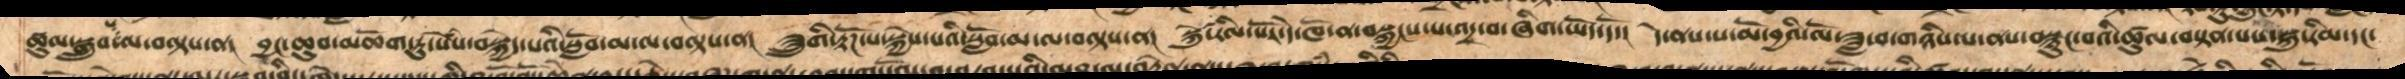ཚུལ་སྒྲུབ་པ་ལ་བལྟས་ན། བྱང་ཆུབ་མཆོག་ཏུ་སེཾས་བསྐྱེད་པའི་སློབ་མ་ལ་བལྟས་ན། ཟུུུགི་རྟོཌ་པ་སྐྱེས་པའི་སློབ་མ་ལ་བལྟས་ན། སྐུཚེ་རིལ་པོར་དེ་ཁོ་ན་བསྐྱངས་པ་འདྲ་བ་ཞིག་ཡོད་དོ། དེ་ནས་ས་མོ་བྱའི་ལོ་ཟླ་བ་གཉིས་པ་ནས་བསྙུང་བའི་ཚུལ་བསྟན་པས་སྐུ་རིམ་དང་
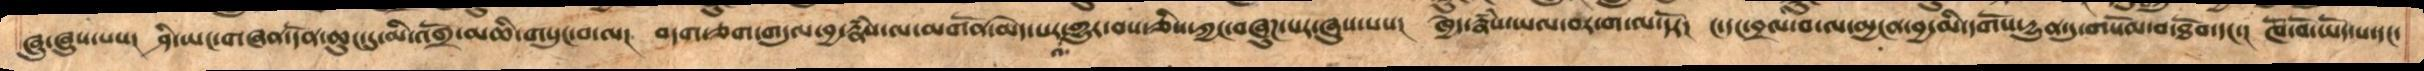ཞུ་ཞུས་པས། ཤི་ཡང་གཞན་དོན་ཆུང་དུ་མི་འགྲོ་མཆི་གསུང་བ་ལ། བདག་ཅག་གདུལ་བྱ་རྣཾས་ལ་མགོན་མེད་པར་འགྱུར་བས་ཅིས་ཀྱང་བཞུཌ་པར་ཞུས་པས། ཁྱེད་རྣཾས་ཡལ་བར་ག་ལ་དོར། ང་དང་བྲལ་བ་ལ་མྱངན་བྱ་མི་དགོས་དྱུན་དུ་གསོལ་བ་ཐོབ་དང་། ཁོ་བོ་ཡོད་པ་དང་
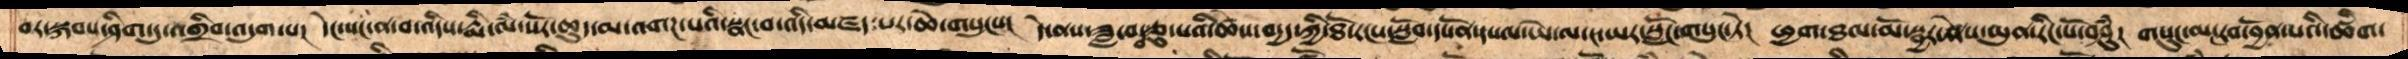བར་སྐབས་ཤིག་ཏུ་འགྲིབ་འདུག་པ། དེང་སང་ན་བ་འདིས་རྨི་ལཾ་སོར་ཆུད་མ་འགཌ་པའི་སྣང་བ་འདི་མཛད་པར་ཆེ་གསུངས། དེ་ནས་ཟླ་བ་བཅུ་པའི་ཚེས་བདྱད་ཀྱི་ཐོ་རངས་སློབ་དཔོན་དཔལ་ཡེ་་ལ་ང་ཡར་སློང་གསུང་ཏེ། ཕྱག་ཐལ་མོ་སྦྱར་ནེས་ཡུན་རིང་པོ་བཤུཾ། གསུང་མང་རབ་བྱོན་པའི་ཚིག་
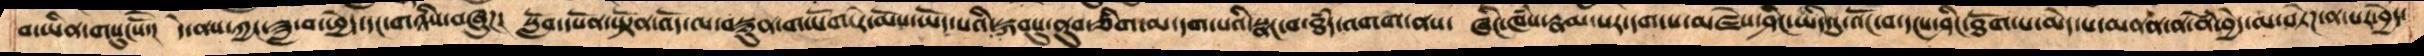བ་ཡིན་གསུངསོ་།  དེ་ནས་ཀྱང་ཟླ་བ་ཕྱེད་དང་གཉིས་བཞུཌ   སློབ་དཔོན་ཡྟོན་འོད་ལ་བསྙུན་གཡོག་རེ་མོས་ཡོད་པའི་སྐབསུ་ནུབ་ཅིག་མ་དག་པའི་སྣང་བ་ཐཾད་འགག་ནས།  ཞིང་ཁཾས་རྣམ་པར་དག་པ་མཛེས་ཤིང་ཡིད་དུ་འོང་བ་དངས་ཤིང་ཐོག་པ་མེད་པ་མནན་ན་ནེ་ཾབྱེད་མ་བཏེཌ་ན་པར་བྱེད་
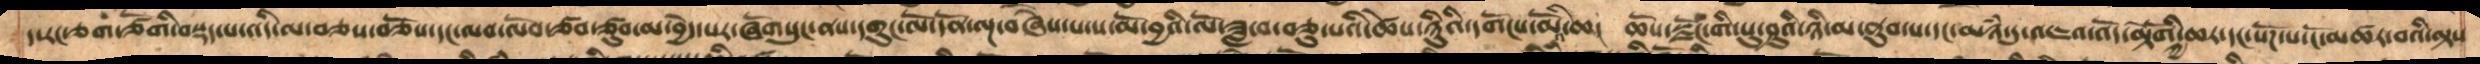ད་རང་ཅག་ཙོགི་བསྡད་པ་འདི་ལ་བཅས་བཅོས་དང་ལབ་ལོབ་ཙབ་ཙུབ་མ་བྱེད་པར་ཞོགསུང་ནས་དགུང་ལོ་དོན་ལྔ་བཞེས་པ་ས་མོ་བྱའི་ལོ་ཟླ་བ་བཅུ་པའི་ཚེས་ཉིུའི་དགོངས་མོའི་ཆ། ཆོས་སྫོང་གི་པུ་ཤུའི་ཉི་མ་ནུབ་པ་དང་མཉཾ་དུ་འཇའ་དང་འོད་མྟེོགི་ཀྱི་ཆར་དང་སོཌ་པ་ངོ་མཚར་བའི་ལྟས
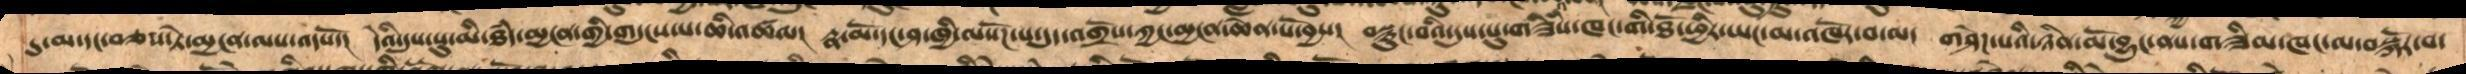དུ་མ་དང་བཅས་ཏེ་མྱངན་ལས་འདསོ།  དེའི་དུས་སུ་མི་ཐཾད་མྱངན་གྱིས་གདུངས་པ་ཆི་འཚལ།  རྣ་མོ་དང་ཤ་ཁྱི་ལསོཌ་པ་དུད་འགྲོས་ཀྱང་མྱངན་ཆེན་པོ་བྱས།  བསྙུང་བའི་དུས་སུ་གཟིསཾ་ཁང་གི་ཐོ་ཕྱིར་ཡང་མ་འཁོར་བ་ལ་  གཤེཌ་པའི་ཉིན་མོ་བྱུང་ནས་གཟིམ་ཁང་ལ་བསྐོར་བ་
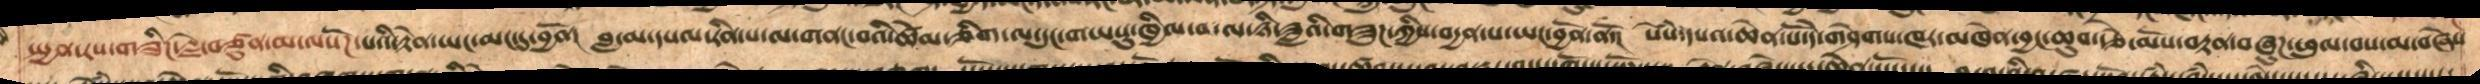སྤྱན་རས་གཟིཌ་རྗེ་བཙུན་མ་ལསོཌ་པའི་རྟེན་ཡང་མང་དུ་བྱོན།  བླ་མ་དཔལ་རིན་པ་ལ་གནང་བའི་ཚེམ་ཅིག་ལ་དུང་གཡསུ་འཁྱིལ་བ་ལ་ཉི་ཟླའི་གཟུཌ་ཀྱིས་བདྱན་པ་ཡང་བྱོན་ནོ།  སེཾས་དཔའ་ཆེན་པོ་དེ་གཤེགས་ཁར་མཁེན་བྱང་ཆུབ་རྩེ་མོས་བརྟན་བཞུཌ་ཕུལ་བས་མ་བཞེས
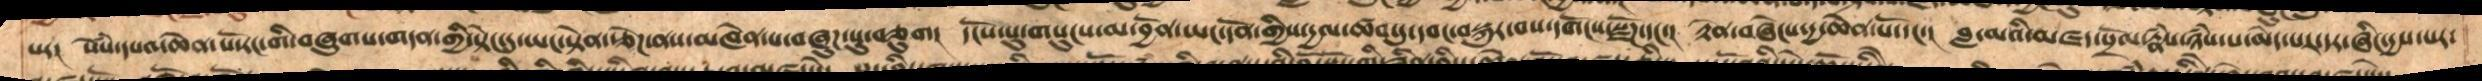པར།  སེཾས་དཔའ་ཆེན་པོ་རང་གི་བཞུགས་གདན་གྱི་སྟེང་དུ་ཡང་སྟེན་བརྩེཌ་ནས་མཁེན་པ་བཞུཌ་སུ་བཅུག།  དངོས་སུ་གསུངས་མ་བྱོན་ཡང་དོན་གྱིས་དྱལ་ཚབ་དུ་དབང་བསྐུར་བས་དགོངས་སྫོཌ་དང།  རྟེན་བཞེངས་དྱ་ཆེན་པོ་མཛད།  བླ་མའི་མཛད་སྲོལ་རྣཾས་ཉཾས་པ་མེད་པར་དར་ཞིང་དྱས་པར་
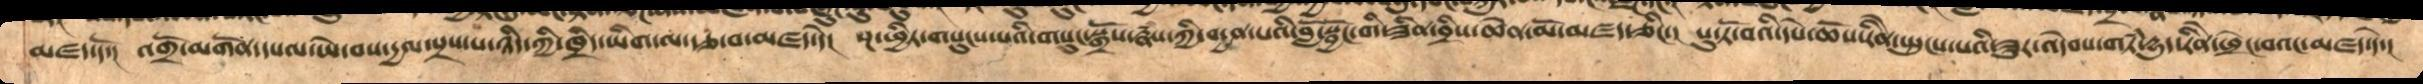མཛད་དོ།  འགྲོ་མགོན་དཔལ་ཡེ་བས་དྱལ་སྲས་པ་ཉིད་ཀྱི་ཁྲིད་ཡིག་ལ་རྩ་བ་མཛད་དེ།  སྔ་ཕྱིར་གསུངས་པའི་གསུང་སྒྲོས་རྣཾས་ཀྱི་བདྱན་པའི་བློ་སྦྱོང་གི་ཟིན་བྲིས་ཆེན་མོ་མཛད་ཅིང་།  པུ་ཏོ་བའི་དཔེ་ཆོས་རིེན་སྤུངས་པའི་ཟུར་འདེབས་གཏཾ་དྱུད་རིེན་ཕྲེང་བའང་མཛད་དེ་།
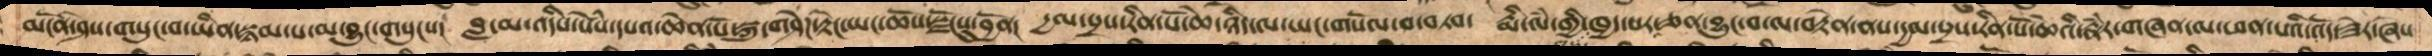མངོན་ཤེས་གསུང་བ་ཡིན་སྙམ་པ་མ་བྱུང་གསུངས།  བླ་མ་འདིས་སེཾས་དཔའ་ཆེན་པོ་སྐུ་གཤེཌ་རྟེང་ཡང་ཆོས་སྫོངསུ་བྱོན།  དྱལ་སྲས་རིན་པོ་ཆེ་ཉིད་ལ་གསོལ་བ་བཏབ།  རྨི་ལཾ་གྱི་ཁྱད་པར་ཅན་བྱུང་བ་ལ་བརྟེན་ནས་དྱལ་སྲས་རིན་པོ་ཆེའི་རྣཾར་གཞན་ལ་ཕན་པའི་འོད་ཟེར་ཞེས་
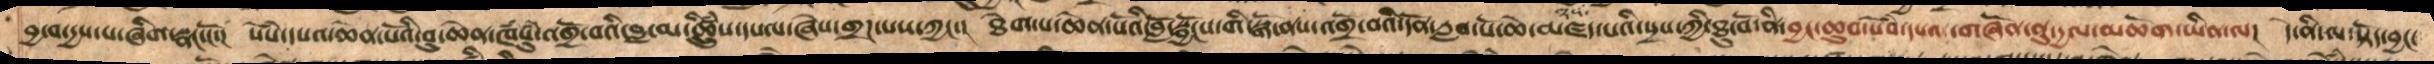བྱ་བ་དྱས་པ་ཞིག་སྣང་ངོ་། སེཾས་དཔའ་ཆེན་པོའི་བུ་ཆེན་ཁཾསུཾ་འགྲོ་བའི་བླ་མ་ཚྲིུས་དཔལ་ཞེས་གྲཌ་པས་ཀྱང་།  ཐེག་པ་ཆེན་པོའི་བློ་སྦྱོངས་གི་སྒོ་ནས་འགྲོ་བའི་དོན་རླབ་པོ་ཆེ་མཛད་པའི་སྲས་ཀྱི་ཐུ་བོ་ནི་བྱང་ཆུབ་སེཾས་དཔའ་གཞོན་ནུ་དྱལ་མཆོག་ཡིན་ལ། དེ་ནི་ལ་སྟོད་བྱང་
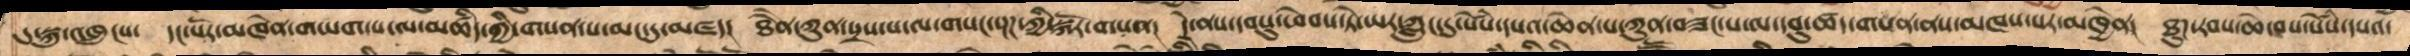དུ་སྐུ་འཁྲུངས།  དང་པོར་མཁེན་གཡག་པ་ལ་མཚིད་ཀྱི་གསན་པ་མང་དུ་མཛད།  ཐཻན་ཀུན་སྲས་པ་ལ་གསང་སྔཌ་ཀྱི་སྐོར་གསན།  དེ་ནས་དབསུ་ཕེབས་ཏེ་ཡར་ཀླུང་དུ་སེཾས་དཔའ་ཆེན་པ་ཀུན་བཟང་པ་ལ་དབུ་ཚད་གསན་ནས་མཁས་པར་མཁྱེན།  ཐུཌ་རབས་ཆེ་བས་སེཾས་དཔའ་
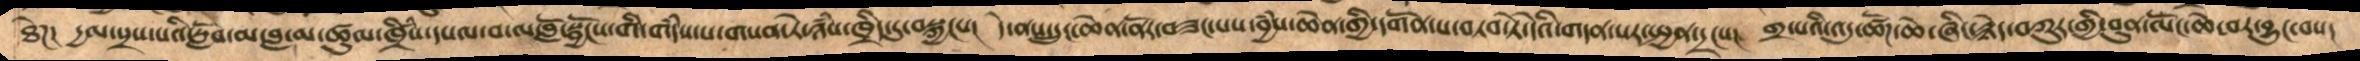ཐེཌ།  དྱལ་སྲས་པའི་སློབ་མ་བླ་མ་ཚུལ་ཁྲིཾས་དཔལ་བ་ལ་བློ་སྦྱོངས་གི་གདཾས་པ་གསན་ཏེ་ཉཾས་ཁྲིད་དུ་བསྐྱངས།  དེ་ནསུ་དྲུང་ཆེན་ནོར་བཟང་པས་བྱཾས་ཆེན་གྱི་དགོན་པ་བཏབ་ཏེ་དེའི་གདན་སར་སྤྱན་དྲངས།  གྲ་པའི་འདུ་ཚོཌ་ཆེ་ཞིང་རྙེད་བཀུར་གྱི་བུན་ལོང་ཆེ་བར་བྱུང་བས།
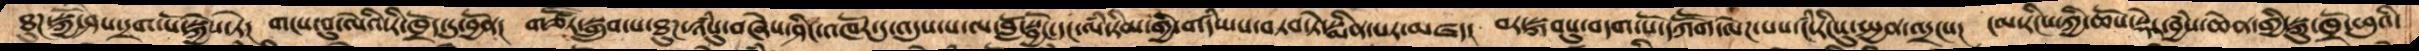ཐུཌ་སྐྱོ་ཤས་དྲག་པོ་སྐྱེས་ཏེ།  གངས་བུ་ལེའི་རི་ཁྲོད་དུ་བྱོན།  གཙཽར་སྒྲུབ་པ་ཐུཌ་ཉཾསུ་བཞེས་ཤིང་འཁོར་དུ་འདུས་པ་ལ་་བློ་སྦྱོང་དང་ལཾ་རིམ་གྱི་གདཾས་པ་བཏབ་ཏེ་སྨིན་པར་མཛད།  བར་སྐབསུ་བདག་པོ་དཀཽག་ལེཌ་པས་ངཾ་རིངསུ་སྤྱན་དྲངས།  ངམ་རིངས་ཀྱི་ཆོས་སྡེང་བྱཾས་ཆེན་གྱི་སྐུ་ཁྲོ་ཕུའི་
